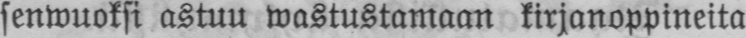senwuoksi astuu wastustamaan kirjanoppineita
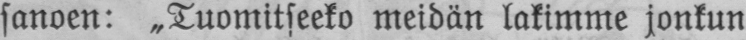sanoen: „Tuomitseeko meidän lakimme jonkun
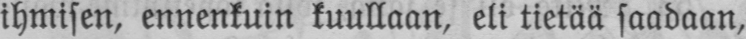ihmisen, ennenkuin kuullaan, eli tietää saadaan,
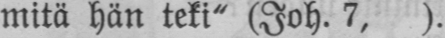mitä hän teki" (Joh. 7, ).
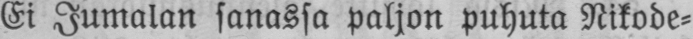Ei Jumalan sanassa paljon puhuta Nikode-
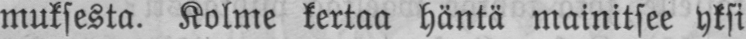muksesta. Kolme kertaa häntä mainitsee yksi
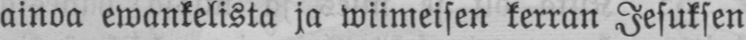ainoa ewankelista ja wiimeisen kerran Jesuksen
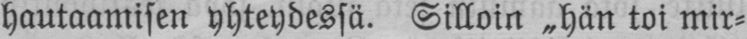hautaamisen yhteydessä. Silloin „hän toi mir-
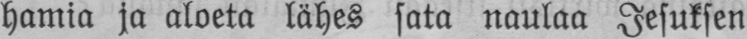hamia ja aloeta lähes sata naulaa Jesuksen
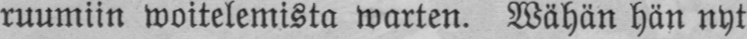ruumiin woitelemista warten. Wähän hän nyt
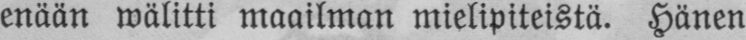enään wälitti maailman mielipiteistä. Hänen
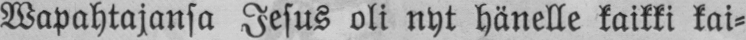Wapahtajansa Jesus oli nyt hänelle kaikki kai-
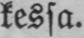kessa.
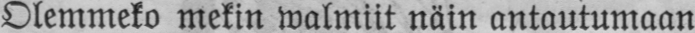Olemmeko mekin walmiit näin antautumaan
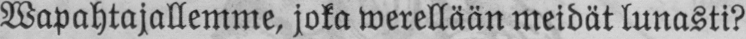Wapahtajallemme, joka werellään meidät lunasti?
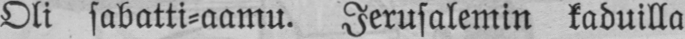Oli sabatti-aamu. Jerusalemin kaduilla
